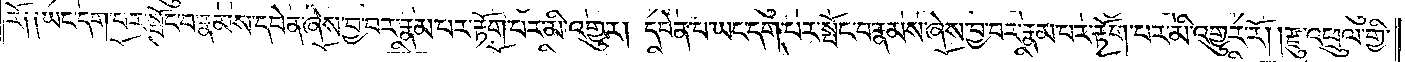རོ༏ ༏ཡང་དག་པར་སྤོང་བ་རྣམས་དབེན་ཞེས་བྱ་བར་རྣམ་པར་རྟོག་པར་མི་འགྱུར། དབེན་པ་ཡང་དག་པར་སྤོང་བ་རྣམས་ཞེས་བྱ་བར་རྣམ་པར་རྟོག་པར་མི་འགྱུར་རོ། །རྫུ་འཕྲུལ་གྱི་
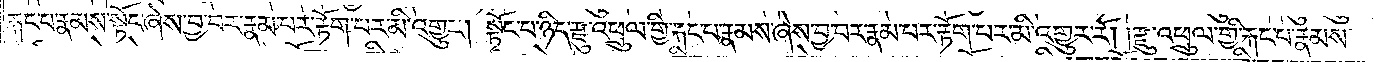རྐང་པ་རྣམས་སྟོང་ཞེས་བྱ་བར་རྣམ་པར་རྟོག་པར་མི་འགྱུར། སྟོང་པ་ཉིད་རྫུ་འཕྲུལ་གྱི་རྐང་པ་རྣམས་ཞེས་བྱ་བར་རྣམ་པར་རྟོག་པར་མི་འགྱུར་རོ། །རྫུ་འཕྲུལ་གྱི་རྐང་པ་རྣམས་
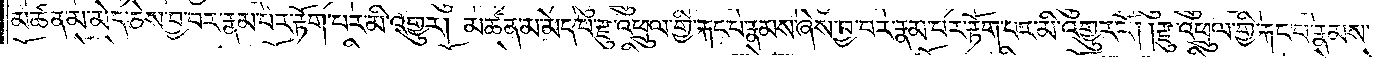མཚན་མ་མེད་ཅེས་བྱ་བར་རྣམ་པར་རྟོག་པར་མི་འགྱུར། མཚན་མ་མེད་པ་རྫུ་འཕྲུལ་གྱི་རྐང་པ་རྣམས་ཞེས་བྱ་བར་རྣམ་པར་རྟོག་པར་མི་འགྱུར་རོ། །རྫུ་འཕྲུལ་གྱི་རྐང་པ་རྣམས་
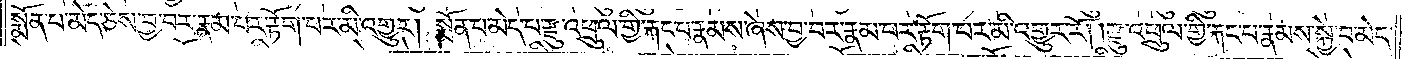སྨོན་པ་མེད་ཅེས་བྱ་བར་རྣམ་པར་རྟོག་པར་མི་འགྱུར། སྨོན་པ་མེད་པ་རྫུ་འཕྲུལ་གྱི་རྐང་པ་རྣམས་ཞེས་བྱ་བར་རྣམ་པར་རྟོག་པར་མི་འགྱུར་རོ། །རྫུ་འཕྲུལ་གྱི་རྐང་པ་རྣམས་སྐྱེ་བ་མེད་
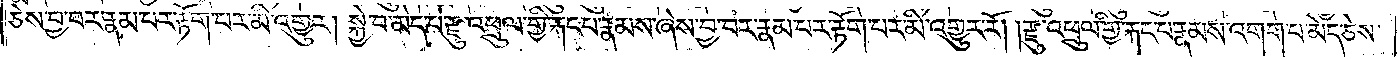ཅེས་བྱ་བར་རྣམ་པར་རྟོག་པར་མི་འགྱུར། སྐྱ་བ་མེད་པ་རྫུ་འཕྲུལ་གྱི་རྐང་པ་རྣམས་ཞེས་བྱ་བར་རྣམ་པར་རྟོག་པར་མི་འགྱུར་རོ། །རྫུ་འཕྲུལ་གྱི་རྐང་པ་རྣམས་འགག་པ་མེད་ཅེས་
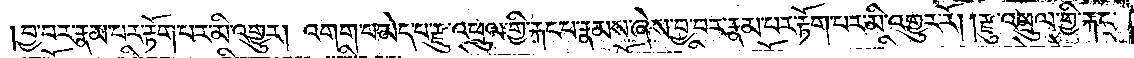བྱ་བར་རྣམ་པར་རྟོག་པར་མི་འགྱུར། འགག་པ་མེད་པ་རྫུ་འཕྲུལ་གྱི་རྐང་པ་རྣམས་ཞེས་བྱ་བར་རྣམ་པར་རྟོག་པར་མི་འགྱུར་རོ། །རྫུ་འཕྲུལ་གྱི་རྐང་
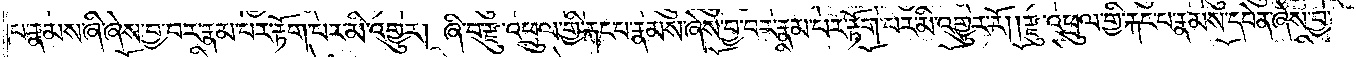པ་རྣམས་ཞི་ཞེས་བྱ་བར་རྣམ་པར་རྟོག་པར་མི་འགྱུར། ཞི་བ་རྫུ་འཕྲུལ་གྱི་རྐང་པ་རྣམས་ཞེས་བྱ་བར་རྣམ་པར་རྟོག་པར་མི་འགྱུར་རོ། །རྫུ་འཕྲུལ་གྱི་རྐང་པ་རྣམས་དབེན་ཞེས་བྱ་
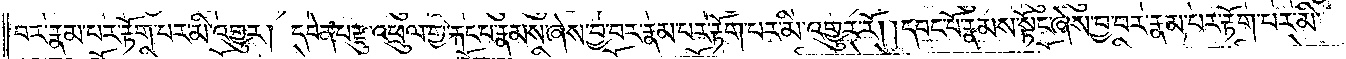བར་རྣམ་པར་རྟོག་པར་མི་འགྱུར། དབེན་པ་རྫུ་འཕྲུལ་གྱི་རྐང་པ་རྣམས་ཞེས་བྱ་བར་རྣམ་པར་རྟོག་པར་མི་འགྱུར་རོ། །དབང་པོ་རྣམས་སྟོང་ཞེས་བྱ་བར་རྣམ་པར་རྟོག་པར་མི་
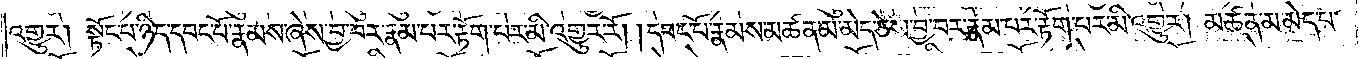འགྱུར། སྟོང་པ་ཉིད་དབང་པོ་རྣམས་ཞེས་བྱ་བར་རྣམ་པར་རྟོག་པར་མི་འགྱུར་རོ། །དབང་པོ་རྣམས་མཚན་མ་མེད་ཅེས་བྱ་བར་རྣམ་པར་རྟོག་པར་མི་འགྱུར། མཚན་མ་མེད་པ་
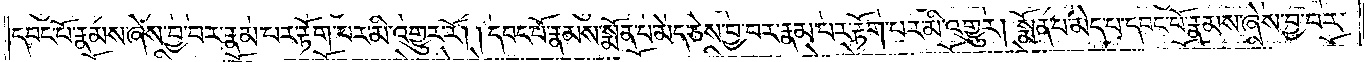དབང་པོ་རྣམས་ཞེས་བྱ་བར་རྣམ་པར་རྟོག་པར་མི་འགྱུར་རོ། །དབང་པོ་རྣམས་སྨོན་པ་མེད་ཅེས་བྱ་བར་རྣམ་པར་རྟོག་པར་མི་འགྱུར། སྨོན་པ་མེད་པ་དབང་པོ་རྣམས་ཞེས་བྱ་བར་
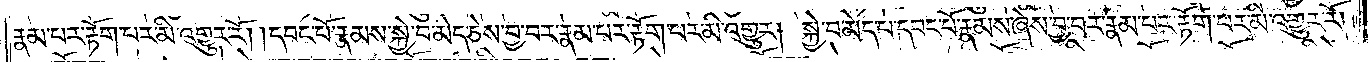རྣམ་པར་རྟོག་པར་མི་འགྱུར་རོ། །དབང་པོ་རྣམས་སྐྱེ་བ་མེད་ཅེས་བྱ་བར་རྣམ་པར་རྟོག་པར་མི་འགྱུར། སྐྱེ་བ་མེད་པ་དབང་པོ་རྣམས་ཞེས་བྱ་བར་རྣམ་པར་རྟོག་པར་མི་འགྱུར་རོ། །
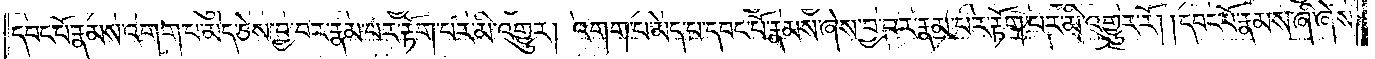དབང་པོ་རྣམས་འགག་པ་མེད་ཅེས་བྱ་བར་རྣམ་པར་རྟོག་པར་མི་འགྱུར། འགག་པ་མེད་པ་དབང་པོ་རྣམས་ཞེས་བྱ་བར་རྣམ་པར་རྟོག་པར་མི་འགྱུར་རོ། །དབང་པོ་རྣམས་ཞི་ཞེས་
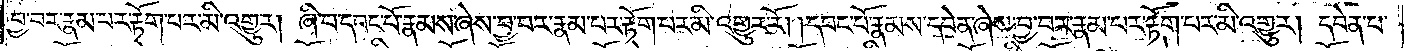བྱ་བར་རྣམ་པར་རྟོག་པར་མི་འགྱུར། ཞི་བ་དབང་པོ་རྣམས་ཞེས་བྱ་བར་རྣམ་པར་རྟོག་པར་མི་འགྱུར་རོ། །དབང་པོ་རྣམས་དབེན་ཞེས་བྱ་བར་རྣམ་པར་རྟོག་པར་མི་འགྱུར། དབེན་པ་
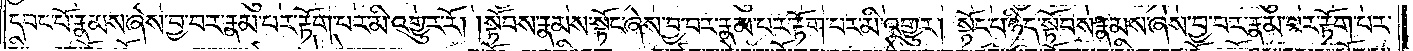དབང་པོ་རྣམས་ཞེས་བྱ་བར་རྣམ་པར་རྟོག་པར་མི་འགྱུར་རོ། །སྟོབས་རྣམས་སྟོང་ཞེས་བྱ་བར་རྣམ་པར་རྟོག་པར་མི་འགྱུར། སྟོང་པ་ཉིད་སྟོབས་རྣམས་ཞེས་བྱ་བར་རྣམ་པར་རྟོག་པར་
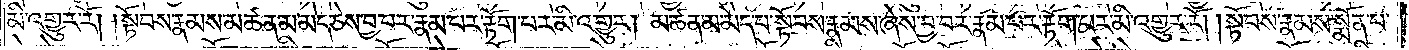མི་འགྱུར་རོ། །སྟོབས་རྣམས་མཚན་མ་མེད་ཅེས་བྱ་བར་རྣམ་པར་རྟོག་པར་མི་འགྱུར། མཚན་མ་མེད་པ་སྟོབས་རྣམས་ཞེས་བྱ་བར་རྣམ་པར་རྟོག་པར་མི་འགྱུར་རོ། །སྟོབས་རྣམས་སྨོན་པ་
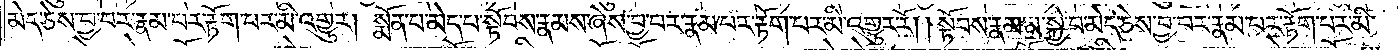མེད་ཅེས་བྱ་བར་རྣམ་པར་རྟོག་པར་མི་འགྱུར། སྨོན་པ་མེད་པ་སྟོབས་རྣམས་ཞེས་བྱ་བར་རྣམ་པར་རྟོག་པར་མི་འགྱུར་རོ། །སྟོབས་རྣམས་སྐྱེ་བ་མེད་ཅེས་བྱ་བར་རྣམ་པར་རྟོག་པར་མི་
